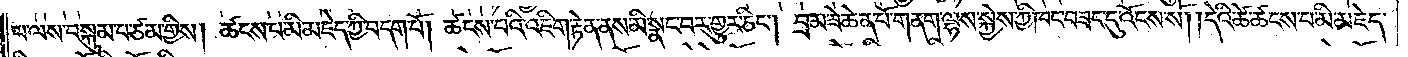པ་ལས་བསྐུམ་པ་ཙམ་གྱིས། ཚངས་པ་མི་མཇེད་ཀྱི་བདག་པོ། ཚངས་པའི་འཇིག་རྟེན་ནས་མི་སྣང་བར་གྱུར་ཅིག། བྲམ་ཟེ་ཆེན་པོ་གནག་ལྷས་སྐྱེས་ཀྱི་ཁང་བཟང་དུ་འོངས་སོ། །དེའི་ཚེ་ཚངས་པ་མི་མཇེད་
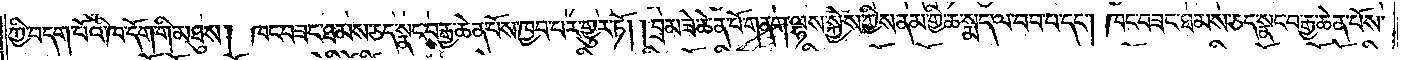ཀྱི་བདག་པོའི་ཁ་དོག་གི་མཐུས། ཁང་བཟང་ཐམས་ཅད་སྣང་བ་རྒྱ་ཆེན་པོས་ཁྱབ་པར་གྱུར་ཏོ། །བྲམ་ཟེ་ཆེན་པོ་གནག་ལྷས་སྐྱེས་ཀྱིས་ནམ་གྱི་ཆ་སྨད་ལ་བབ་པ་དང༌། ཁང་བཟང་ཐམས་ཅད་སྣང་བ་རྒྱ་ཆེན་པོས་
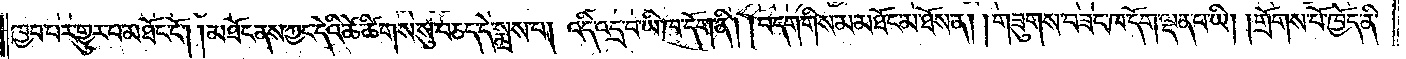ཁྱབ་པར་གྱུར་པ་མཐོང་ངོ༌། །མཐོང་ནས་ཀྱང་དེའི་ཚེ་ཚིགས་སུ་བཅད་དེ་སྨྲས་པ། འདི་འདྲ་བ་ཡི་ཁ་དོག་ནི། །བདག་གིས་མ་མཐོང་མ་ཐོས་ན། །གཟུགས་བཟང་ཁ་དོག་ལྡན་པ་ཡི། །གྲོགས་པོ་ཁྱོད་ནི་
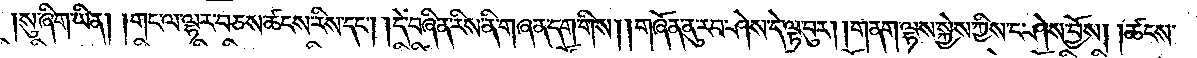སུ་ཞིག་ཡིན། །གང་ལ་ལྷར་བཅས་ཚངས་རིས་དང༌། །དེ་བཞིན་རིས་ནི་གཞན་དག་གིས། །གཞོན་ནུ་རབ་ཤེས་དེ་ལྟ་བུར། །གནག་ལྷས་སྐྱེས་ཀྱིས་ང་ཤེས་བྱོས། །ཚངས་
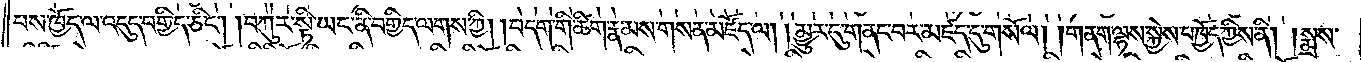པས་ཁྱོད་ལ་འདུད་བགྱིད་ཅིང༌། །བཀུར་སྟི་ཡང་ནི་བགྱིད་ལགས་ཀྱི། །བདག་གི་ཚིག་རྣམས་གསན་མཛོད་ལ། །མྱུར་དུ་གནང་བར་མཛད་དུ་གསོལ། །གནག་ལྷས་སྐྱེས་པ་ཁྱོད་ཀྱིས་ནི། །སྨྲས་
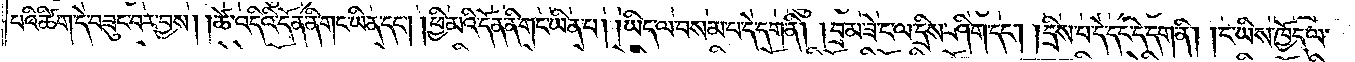པའི་ཚིག་དེ་བཟུང་བར་བྱས། །ཚེ་འདིའི་དོན་ནི་གང་ཡིན་དང༌། །ཕྱི་མའི་དོན་ནི་གང་ཡིན་པ། །ཡིད་ལ་བསམ་པ་དེ་དག་ནི། །བྲམ་ཟེ་ང་ལ་དྲིས་ཤིག་དང༌། །དྲིས་པ་དེ་དང་དེ་དག་ནི། །ང་ཡིས་ཁྱོད་ལ་
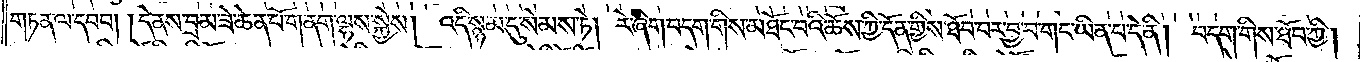གཏན་ལ་དབབ། །དེ་ནས་བྲམ་ཟེ་ཆེན་པོ་གནག་ལྷས་སྐྱེས། འདི་སྙམ་དུ་སེམས་ཏེ། རེ་ཞིག་བདག་གིས་མཐོང་བའི་ཆོས་ཀྱི་དོན་གྱིས་ཐོབ་བར་བྱ་བ་གང་ཡིན་པ་དེ་ནི། བདག་གིས་ཐོབ་ཀྱི།
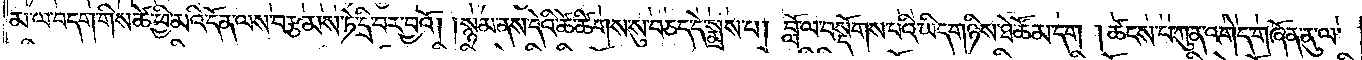མ་ལ་བདག་གིས་ཚེ་ཕྱི་མའི་དོན་ལས་བརྩམས་ཏེ་དྲི་བར་བྱའོ། །སྙམ་ནས་དེའི་ཚེ་ཚིགས་སུ་བཅད་དེ་སྨྲས་པ། བློ་ལ་བསྡོགས་པའི་ཡིད་གཉིས་ཐེ་ཚོམ་དག །ཚངས་པ་ཀུན་འགེད་གཞོན་ནུ་ལ་
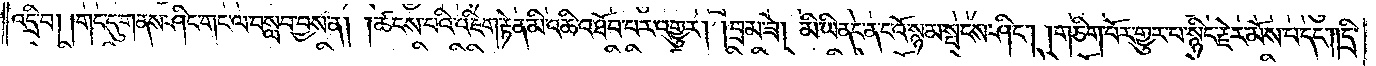འདྲི་བ། །གང་དུ་གནས་ཤིང་གང་ལ་བསླབ་བྱས་ན། །ཚངས་པའི་འཇིག་རྟེན་མི་འཆི་འཐོབ་པར་འགྱུར། །བྲམ་ཟེ། མི་ཡི་ནང་ན་ངའོ་སྙམ་སྤངས་ཤིང༌། །གཅིག་པོར་གྱུར་པ་སྙིང་རྗེར་མོས་པ་དང༌། །དྲི་
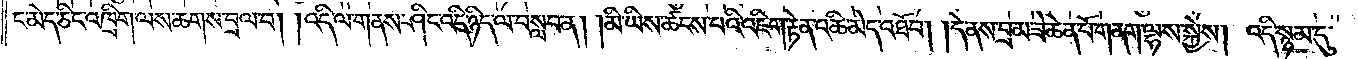ང་མེད་ཅིང་འཁྲིག་ལས་ཆགས་བྲལ་བ། །འདི་ལ་གནས་ཤིང་འདི་ཉིད་ལ་བསླབ་ན། །མི་ཡིས་ཚངས་པའི་འཇིག་རྟེན་འཆི་མེད་འཐོབ། །དེ་ནས་བྲམ་ཟེ་ཆེན་པོ་གནག་ལྷས་སྐྱེས། འདི་སྙམ་དུ་
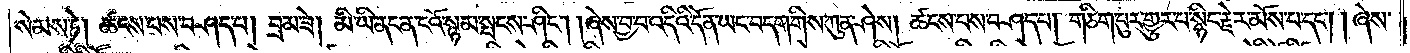སེམས་ཏེ། ཚངས་པས་བཤད་པ། བྲམ་ཟེ། མི་ཡི་ནང་ན་ངའོ་སྙམ་སྤངས་ཤིང༌། །ཞེས་བྱ་བ་འདིའི་དོན་ཡང་བདག་གིས་ཀུན་ཤེས། ཚངས་པས་བཤད་པ། གཅིག་པུར་གྱུར་པ་སྙིང་རྗེར་མོས་པ་དང༌། །ཞེས་
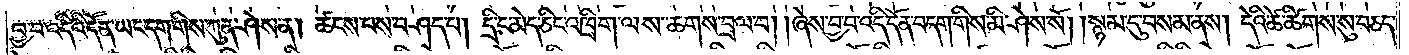བྱ་བ་འདིའི་དོན་ཡང་དག་གིས་ཀུན་ཤེས་ན། ཚངས་པས་བཤད་པ། དྲི་ང་མེད་ཅིང་འཁྲིག་ལས་ཆགས་བྲལ་བ། །ཞེས་བྱ་བ་འདི་དོན་བདག་གིས་མི་ཤེས་སོ། །སྙམ་དུ་བསམ་ནས། དེའི་ཚེ་ཚིགས་སུ་བཅད་
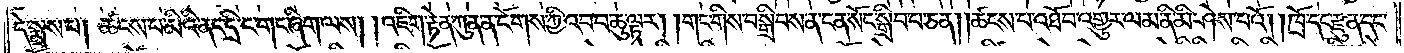དེ་སྨྲས་པ། ཚངས་པ་མིའི་ནང་དྲི་ང་གང་ཞིག་ལས། །འཇིག་རྟེན་ཀུན་ན་ངོགས་ཀྱི་འབབ་ཆུ་ལྟར། །གང་གིས་བསྒྲིབས་ན་ངན་སོང་སྒྲིབ་པ་ཅན། །ཚངས་པ་འཐོབ་འགྱུར་ལམ་ནི་མི་ཤེས་པའོ། །ཁྲོ་དང་རྫུན་དང་
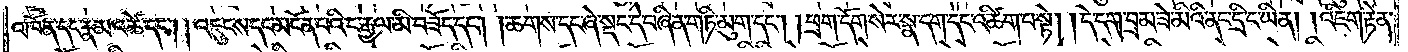འཁོན་དང་རྣམ་འཚེ་དང༌། །འཇུངས་དང་མངོན་པའི་ང་རྒྱལ་མི་བཟོད་དང༌། །ཆགས་དང་ཞེ་སྡང་དེ་བཞིན་གཏི་མུག་དང༌། །ཕྲག་དོག་སེར་སྣ་དག་དང་འཚིག་པ་སྟེ། །དེ་དག་བྲམ་ཟེ་མིའི་ནང་དྲི་ང་ཡིན། །འཇིག་རྟེན་
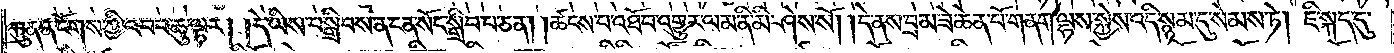ཀུན་ན་ངོགས་ཀྱི་འབབ་ཆུ་ལྟར། །དེ་ཡིས་བསྒྲིབས་ན་ངན་སོང་སྒྲིབ་པ་ཅན། །ཚངས་པ་འཐོབ་འགྱུར་ལམ་ནི་མི་ཤེས་སོ། །དེ་ནས་བྲམ་ཟེ་ཆེན་པོ་གནག་ལྷས་སྐྱེས་འདི་སྙམ་དུ་སེམས་ཏེ། ཇི་སྐད་དུ་
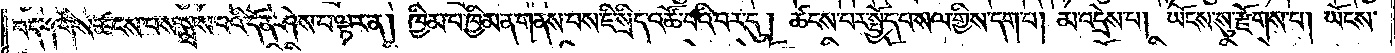བདག་གིས་ཚངས་པས་སྨྲས་པའི་དོན་ཤེས་པ་ལྟར་ན། ཁྱིམ་པ་ཁྱིམ་ན་གནས་པས་ཇི་སྲིད་འཚོ་བའི་བར་དུ། ཚངས་པར་སྤྱོད་པ་སལ་གྱིས་དག་པ། མ་འདྲེས་པ། ཡོངས་སུ་རྫོགས་པ། ཡོངས་
